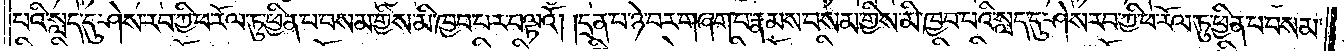པའི་སླད་དུ་ཤེས་རབ་ཀྱི་ཕ་རོལ་ཏུ་ཕྱིན་པ་བསམ་གྱིས་མི་ཁྱབ་པར་བལྟའོ། །དྲན་པ་ཉེ་བར་གཞག་པ་རྣམས་བསམ་གྱིས་མི་ཁྱབ་པའི་སླད་དུ་ཤེས་རབ་ཀྱི་ཕ་རོལ་ཏུ་ཕྱིན་པ་བསམ་
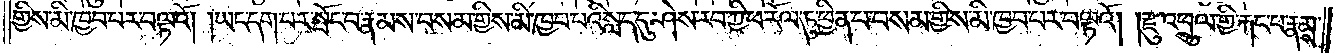གྱིས་མི་ཁྱབ་པར་བལྟའོ། །ཡང་དག་པར་སྤོང་བ་རྣམས་བསམ་གྱིས་མི་ཁྱབ་པའི་སླད་དུ་ཤེས་རབ་ཀྱི་ཕ་རོལ་ཏུ་ཕྱིན་པ་བསམ་གྱིས་མི་ཁྱབ་པར་བལྟའོ། །རྫུ་འཕྲུལ་གྱི་རྐང་པ་རྣམས་
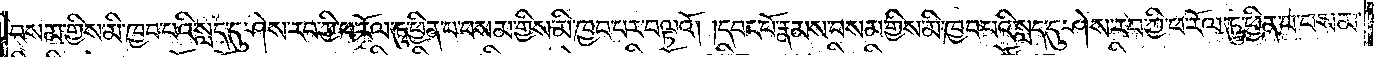བསམ་གྱིས་མི་ཁྱབ་པའི་སླད་དུ་ཤེས་རབ་ཀྱི་ཕ་རོལ་ཏུ་ཕྱིན་པ་བསམ་གྱིས་མི་ཁྱབ་པར་བལྟའོ། །དབང་པོ་རྣམས་བསམ་གྱིས་མི་ཁྱབ་པའི་སླད་དུ་ཤེས་རབ་ཀྱི་ཕ་རོལ་ཏུ་ཕྱིན་པ་བསམ་
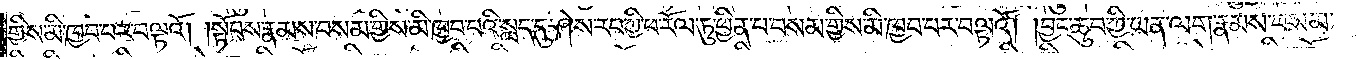གྱིས་མི་ཁྱབ་པར་བལྟའོ། །སྟོབས་རྣམས་བསམ་གྱིས་མི་ཁྱབ་པའི་སླད་དུ་ཤེས་རབ་ཀྱི་ཕ་རོལ་ཏུ་ཕྱིན་པ་བསམ་གྱིས་མི་ཁྱབ་པར་བལྟའོ། །བྱང་ཆུབ་ཀྱི་ཡན་ལག་རྣམས་བསམ་
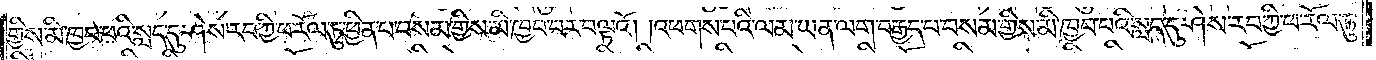གྱིས་མི་ཁྱབ་པའི་སླད་དུ་ཤེས་རབ་ཀྱི་ཕ་རོལ་ཏུ་ཕྱིན་པ་བསམ་གྱིས་མི་ཁྱབ་པར་བལྟའོ། །འཕགས་པའི་ལམ་ཡན་ལག་བརྒྱད་པ་བསམ་གྱིས་མི་ཁྱབ་པའི་སླད་དུ་ཤེས་རབ་ཀྱི་ཕ་རོལ་ཏུ་
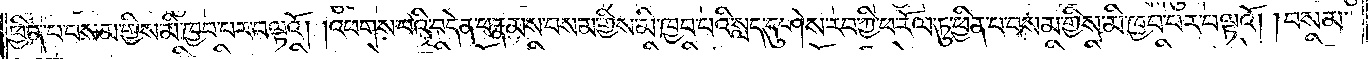ཕྱིན་པ་བསམ་གྱིས་མི་ཁྱབ་པར་བལྟའོ། །འཕགས་པའི་བདེན་པ་རྣམས་བསམ་གྱིས་མི་ཁྱབ་པའི་སླད་དུ་ཤེས་རབ་ཀྱི་ཕ་རོལ་ཏུ་ཕྱིན་པ་བསམ་གྱིས་མི་ཁྱབ་པར་བལྟའོ། །བསམ་
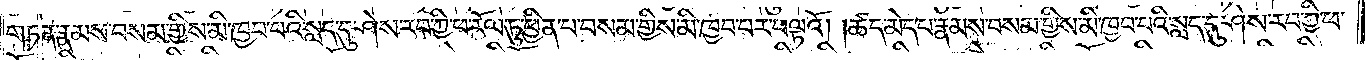གཏན་རྣམས་བསམ་གྱིས་མི་ཁྱབ་པའི་སླད་དུ་ཤེས་རབ་ཀྱི་ཕ་རོལ་ཏུ་ཕྱིན་པ་བསམ་གྱིས་མི་ཁྱབ་པར་བལྟའོ། །ཚད་མེད་པ་རྣམས་བསམ་གྱིས་མི་ཁྱབ་པའི་སླད་དུ་ཤེས་རབ་ཀྱི་ཕ་
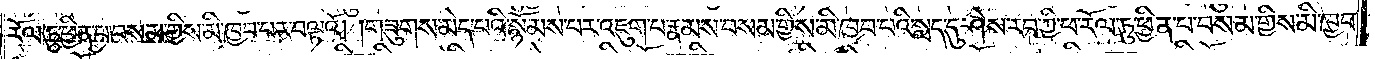རོལ་ཏུ་ཕྱིན་པ་བསམ་གྱིས་མི་ཁྱབ་པར་བལྟའོ། །གཟུགས་མེད་པའི་སྙོམས་པར་འཇུག་པ་རྣམས་བསམ་གྱིས་མི་ཁྱབ་པའི་སླད་དུ་ཤེས་རབ་ཀྱི་ཕ་རོལ་ཏུ་ཕྱིན་པ་བསམ་གྱིས་མི་ཁྱབ་
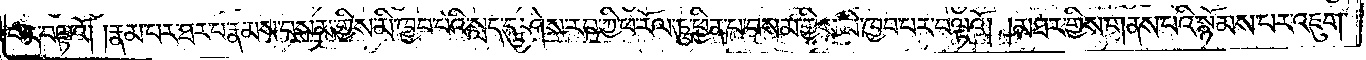པར་བལྟའོ། །རྣམ་པར་ཐར་པ་རྣམས་བསམ་གྱིས་མི་ཁྱབ་པའི་སླད་དུ་ཤེས་རབ་ཀྱི་ཕ་རོལ་ཏུ་ཕྱིན་པ་བསམ་གྱིས་མི་ཁྱབ་པར་བལྟའོ། །མཐར་གྱིས་གནས་པའི་སྙོམས་པར་འཇུག་
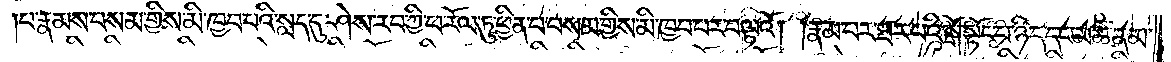པ་རྣམས་བསམ་གྱིས་མི་ཁྱབ་པའི་སླད་དུ་ཤེས་རབ་ཀྱི་ཕ་རོལ་ཏུ་ཕྱིན་པ་བསམ་གྱིས་མི་ཁྱབ་པར་བལྟའོ། །རྣམ་པར་ཐར་པའི་སྒོ་སྟོང་པ་ཉིད་དང་མཚན་མ་
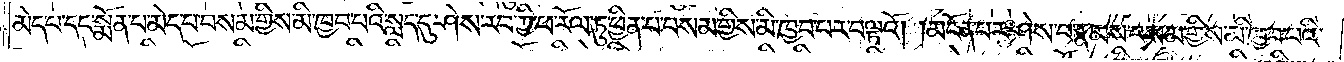མེད་པ་དང་སྨོན་པ་མེད་པ་བསམ་གྱིས་མི་ཁྱབ་པའི་སླད་དུ་ཤེས་རབ་ཀྱི་ཕ་རོལ་ཏུ་ཕྱིན་པ་བསམ་གྱིས་མི་ཁྱབ་པར་བལྟའོ། །མངོན་པར་ཤེས་པ་རྣམས་བསམ་གྱིས་མི་ཁྱབ་པའི་
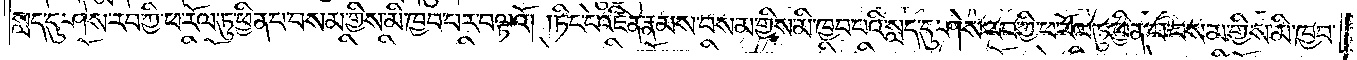སླད་དུ་ཤེས་རབ་ཀྱི་ཕ་རོལ་ཏུ་ཕྱིན་པ་བསམ་གྱིས་མི་ཁྱབ་པར་བལྟའོ། །ཏིང་ངེ་འཛིན་རྣམས་བསམ་གྱིས་མི་ཁྱབ་པའི་སླད་དུ་ཤེས་རབ་ཀྱི་ཕ་རོལ་ཏུ་ཕྱིན་པ་བསམ་གྱིས་མི་ཁྱབ་
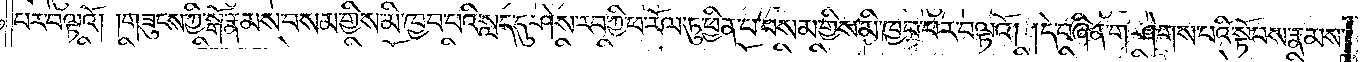པར་བལྟའོ། །གཟུངས་ཀྱི་སྒོ་རྣམས་བསམ་གྱིས་མི་ཁྱབ་པའི་སླད་དུ་ཤེས་རབ་ཀྱི་ཕ་རོལ་ཏུ་ཕྱིན་པ་བསམ་གྱིས་མི་ཁྱབ་པར་བལྟའོ། །དེ་བཞིན་གཤེགས་པའི་སྟོབས་རྣམས་
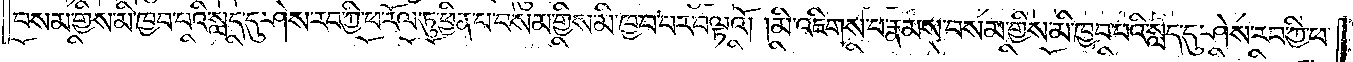བསམ་གྱིས་མི་ཁྱབ་པའི་སླད་དུ་ཤེས་རབ་ཀྱི་ཕ་རོལ་ཏུ་ཕྱིན་པ་བསམ་གྱིས་མི་ཁྱབ་པར་བལྟའོ། །མི་འཇིགས་པ་རྣམས་བསམ་གྱིས་མི་ཁྱབ་པའི་སླད་དུ་ཤེས་རབ་ཀྱི་ཕ་
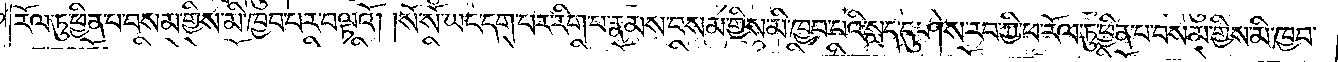རོལ་ཏུ་ཕྱིན་པ་བསམ་གྱིས་མི་ཁྱབ་པར་བལྟའོ། །སོ་སོ་ཡང་དག་པར་རིག་པ་རྣམས་བསམ་གྱིས་མི་ཁྱབ་པའི་སླད་དུ་ཤེས་རབ་ཀྱི་ཕ་རོལ་ཏུ་ཕྱིན་པ་བསམ་གྱིས་མི་ཁྱབ་
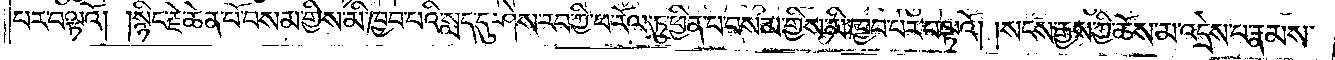པར་བལྟའོ། །སྙིང་རྗེ་ཆེན་པོ་བསམ་གྱིས་མི་ཁྱབ་པའི་སླད་དུ་ཤེས་རབ་ཀྱི་ཕ་རོལ་ཏུ་ཕྱིན་པ་བསམ་གྱིས་མི་ཁྱབ་པར་བལྟའོ། །སངས་རྒྱས་ཀྱི་ཆོས་མ་འདྲེས་པ་རྣམས་
